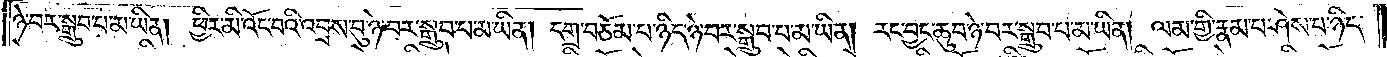ཉེ་བར་སྒྲུབ་པ་མ་ཡིན། ཕྱིར་མི་འོང་བའི་འབྲས་བུ་ཉེ་བར་སྒྲུབ་པ་མ་ཡིན། དགྲ་བཅོམ་པ་ཉིད་ཉེ་བར་སྒྲུབ་པ་མ་ཡིན། རང་བྱང་ཆུབ་ཉེ་བར་སྒྲུབ་པ་མ་ཡིན། ལམ་གྱི་རྣམ་པ་ཤེས་པ་ཉིད་
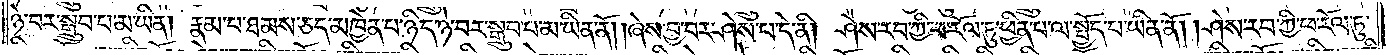ཉེ་བར་སྒྲུབ་པ་མ་ཡིན། རྣམ་པ་ཐམས་ཅད་མཁྱེན་པ་ཉིད་ཉེ་བར་སྒྲུབ་པ་མ་ཡིན་ནོ། །ཞེས་བྱ་བར་ཤེས་པ་དེ་ནི། ཤེས་རབ་ཀྱི་ཕ་རོལ་ཏུ་ཕྱིན་པ་ལ་སྤྱོད་པ་ཡིན་ནོ། །ཤེས་རབ་ཀྱི་ཕ་རོལ་ཏུ་
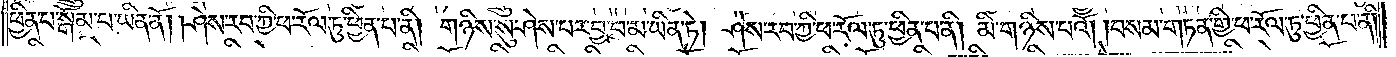ཕྱིན་པ་སྒོམ་པ་ཡིན་ནོ། །ཤེས་རབ་ཀྱི་ཕ་རོལ་ཏུ་ཕྱིན་པ་ནི། གཉིས་སུ་ཤེས་པར་བྱ་བ་མ་ཡིན་ཏེ། ཤེས་རབ་ཀྱི་ཕ་རོལ་ཏུ་ཕྱིན་པ་ནི། མི་གཉིས་པའོ། །བསམ་གཏན་གྱི་ཕ་རོལ་ཏུ་ཕྱིན་པ་ནི།
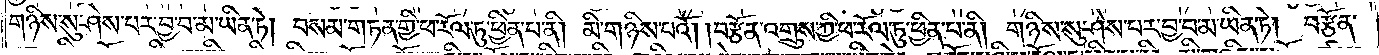གཉིས་སུ་ཤེས་པར་བྱ་བ་མ་ཡིན་ཏེ། བསམ་གཏན་གྱི་ཕ་རོལ་ཏུ་ཕྱིན་པ་ནི། མི་གཉིས་པའོ། །བརྩོན་འགྲུས་ཀྱི་ཕ་རོལ་ཏུ་ཕྱིན་པ་ནི། གཉིས་སུ་ཤེས་པར་བྱ་བ་མ་ཡིན་ཏེ། བརྩོན་
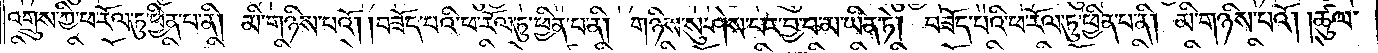འགྲུས་ཀྱི་ཕ་རོལ་ཏུ་ཕྱིན་པ་ནི། མི་གཉིས་པའོ། །བཟོད་པའི་ཕ་རོལ་ཏུ་ཕྱིན་པ་ནི། གཉིས་སུ་ཤེས་པར་བྱ་བ་མ་ཡིན་ཏེ། བཟོད་པའི་ཕ་རོལ་ཏུ་ཕྱིན་པ་ནི། མི་གཉིས་པའོ། །ཚུལ་
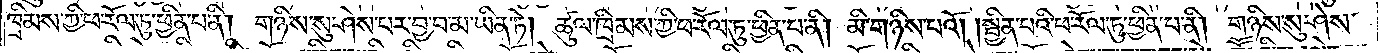ཁྲིམས་ཀྱི་ཕ་རོལ་ཏུ་ཕྱིན་པ་ནི། གཉིས་སུ་ཤེས་པར་བྱ་བ་མ་ཡིན་ཏེ། ཚུལ་ཁྲིམས་ཀྱི་ཕ་རོལ་ཏུ་ཕྱིན་པ་ནི། མི་གཉིས་པའོ། །སྦྱིན་པའི་ཕ་རོལ་ཏུ་ཕྱིན་པ་ནི། གཉིས་སུ་ཤེས་
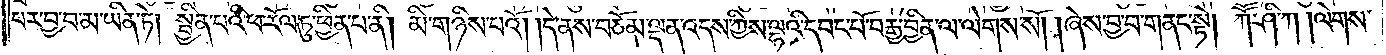པར་བྱ་བ་མ་ཡིན་ཏེ། སྦྱིན་པའི་ཕ་རོལ་ཏུ་ཕྱིན་པ་ནི། མི་གཉིས་པའོ། །དེ་ནས་བཅོམ་ལྡན་འདས་ཀྱིས་ལྷའི་དབང་པོ་བརྒྱ་བྱིན་ལ་ལེགས་སོ། །ཞེས་བྱ་བ་གནང་སྟེ། ཀཽ་ཤི་ཀ །ལེགས་
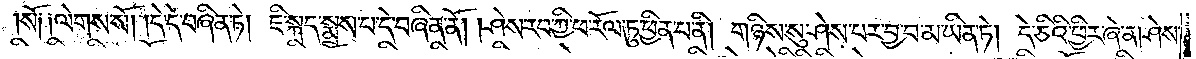སོ། ལེགས་སོ། །དེ་དེ་བཞིན་ཏེ། ཇི་སྐད་སྨྲས་པ་དེ་བཞིན་ནོ། །ཤེས་རབ་ཀྱི་ཕ་རོལ་ཏུ་ཕྱིན་པ་ནི། གཉིས་སུ་ཤེས་པར་བྱ་བ་མ་ཡིན་ཏེ། དེ་ཅིའི་ཕྱིར་ཞེ་ན། ཤེས་
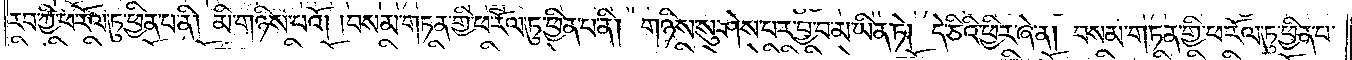རབ་ཀྱི་ཕ་རོལ་ཏུ་ཕྱིན་པ་ནི། མི་གཉིས་པའོ། །བསམ་གཏན་གྱི་ཕ་རོལ་ཏུ་ཕྱིན་པ་ནི། གཉིས་སུ་ཤེས་པར་བྱ་བ་མ་ཡིན་ཏེ། དེ་ཅིའི་ཕྱིར་ཞེ་ན། བསམ་གཏན་གྱི་ཕ་རོལ་ཏུ་ཕྱིན་པ་
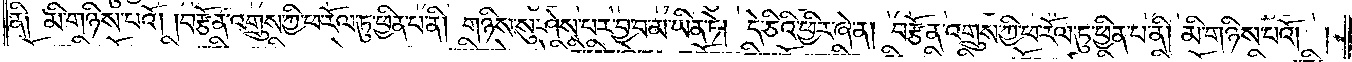ནི། མི་གཉིས་པའོ། །བརྩོན་འགྲུས་ཀྱི་ཕ་རོལ་ཏུ་ཕྱིན་པ་ནི། གཉིས་སུ་ཤེས་པར་བྱ་བ་མ་ཡིན་ཏེ། དེ་ཅིའི་ཕྱིར་ཞེ་ན། བརྩོན་འགྲུས་ཀྱི་ཕ་རོལ་ཏུ་ཕྱིན་པ་ནི། མི་གཉིས་པའོ། །
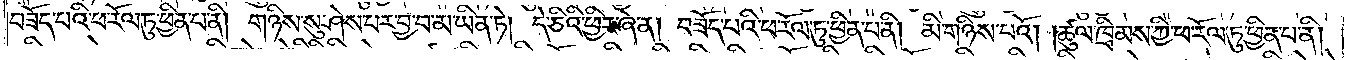བཟོད་པའི་ཕ་རོལ་ཏུ་ཕྱིན་པ་ནི། གཉིས་སུ་ཤེས་པར་བྱ་བ་མ་ཡིན་ཏེ། དེ་ཅིའི་ཕྱིར་ཞེ་ན། བཟོད་པའི་ཕ་རོལ་ཏུ་ཕྱིན་པ་ནི། མི་གཉིས་པའོ། །ཚུལ་ཁྲིམས་ཀྱི་ཕ་རོལ་ཏུ་ཕྱིན་པ་ནི།
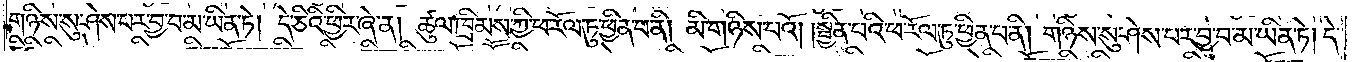གཉིས་སུ་ཤེས་པར་བྱ་བ་མ་ཡིན་ཏེ། དེ་ཅིའི་ཕྱིར་ཞེ་ན། ཚུལ་ཁྲིམས་ཀྱི་ཕ་རོལ་ཏུ་ཕྱིན་པ་ནི། མི་གཉིས་པའོ། །སྦྱིན་པའི་ཕ་རོལ་ཏུ་ཕྱིན་པ་ནི། གཉིས་སུ་ཤེས་པར་བྱ་བ་མ་ཡིན་ཏེ། དེ་
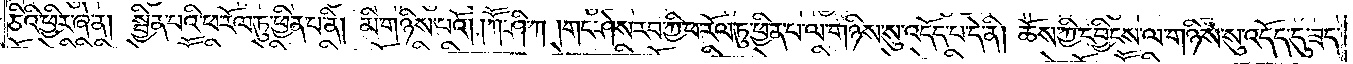ཅིའི་ཕྱིར་ཞེ་ན། སྦྱིན་པའི་ཕ་རོལ་ཏུ་ཕྱིན་པ་ནི། མི་གཉིས་པའོ། །ཀཽ་ཤི་ཀ །གང་ཤེས་རབ་ཀྱི་ཕ་རོལ་ཏུ་ཕྱིན་པ་ལ་གཉིས་སུ་འདོད་པ་དེ་ནི། ཆོས་ཀྱི་དབྱིངས་ལ་གཉིས་སུ་འདོད་དུ་ཟད་
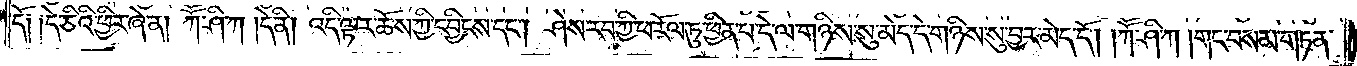དོ༑༑དེ་ཅིའི་ཕྱིར་ཞེ་ན། ཀཽ་ཤི་ཀ །དེ་ནི། འདི་ལྟར་ཆོས་ཀྱི་དབྱིངས་དང༌། ཤེས་རབ་ཀྱི་ཕ་རོལ་ཏུ་ཕྱིན་པ་དེ་ལ་གཉིས་སུ་མེད་དེ་གཉིས་སུ་བྱར་མེད་དོ། །ཀཽ་ཤི་ཀ །གང་བསམ་གཏན་
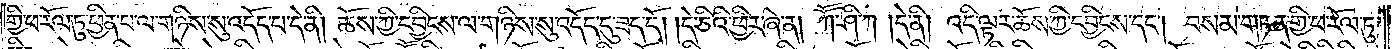གྱི་ཕ་རོལ་ཏུ་ཕྱིན་པ་ལ་གཉིས་སུ་འདོད་པ་དེ་ནི། ཆོས་ཀྱི་དབྱིངས་ལ་གཉིས་སུ་འདོད་དུ་ཟད་དོ། །དེ་ཅིའི་ཕྱིར་ཞེ་ན། ཀཽ་ཤི་ཀ །དེ་ནི། འདི་ལྟར་ཆོས་ཀྱི་དབྱིངས་དང༌། བསམ་གཏན་གྱི་ཕ་རོལ་ཏུ་
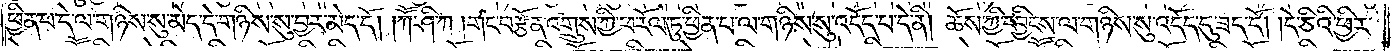ཕྱིན་པ་དེ་ལ་གཉིས་སུ་མེད་དེ་གཉིས་སུ་བྱར་མེད་དོ། །ཀཽ་ཤི་ཀ །གང་བརྩོན་འགྲུས་ཀྱི་ཕ་རོལ་ཏུ་ཕྱིན་པ་ལ་གཉིས་སུ་འདོད་པ་དེ་ནི། ཆོས་ཀྱི་དབྱིངས་ལ་གཉིས་སུ་འདོད་དུ་ཟད་དོ། །དེ་ཅིའི་ཕྱིར་
